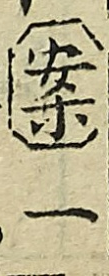（案）一
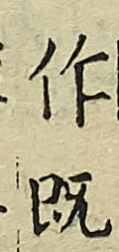作既
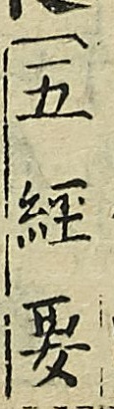（五經要
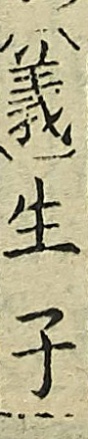（義）生子
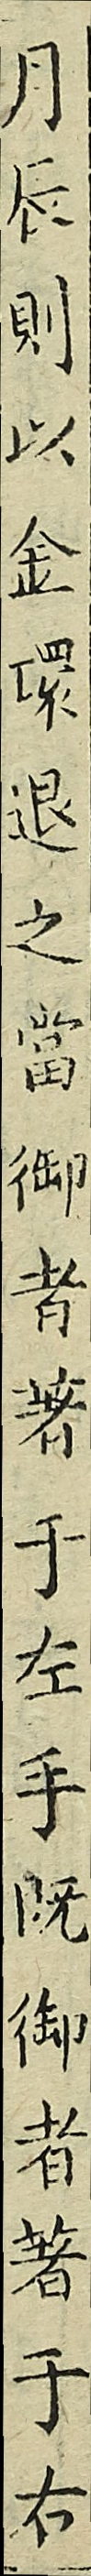月長則以金環退之當御者著于左手既御者著于右
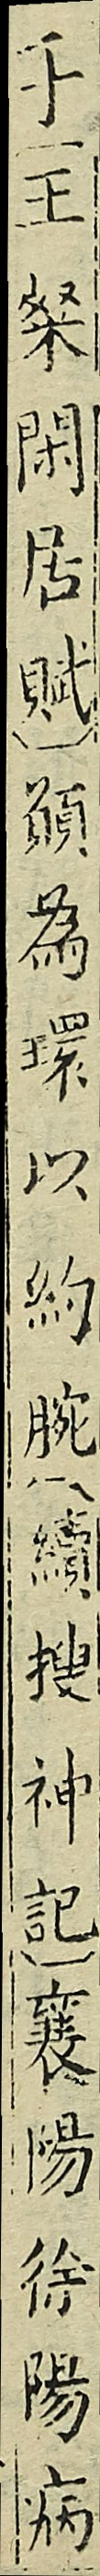于（王粲閑居賦）為環以約腕（續搜神記）襄陽徐陽病
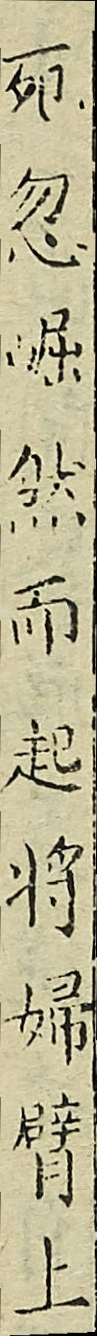死忽崛然而起將婦臂上
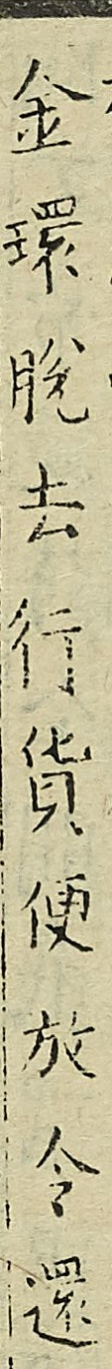金環脫去行貨便放令還
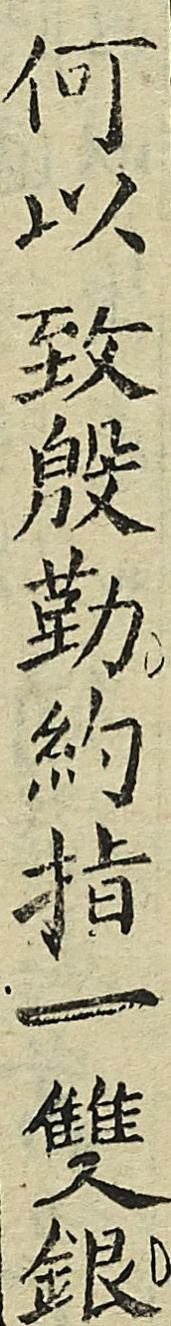何以致殷勤約指一雙銀
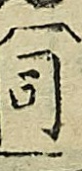（司
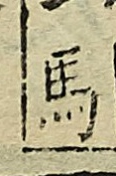馬
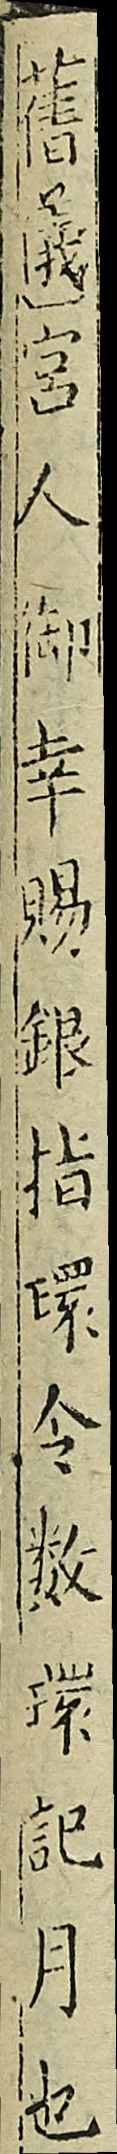舊義）宮人御倖賜銀指環令數環記月也
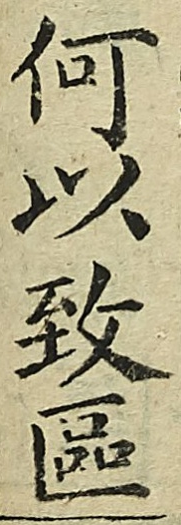何以致區
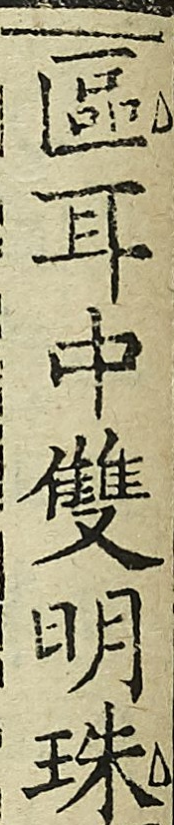區耳中雙明珠
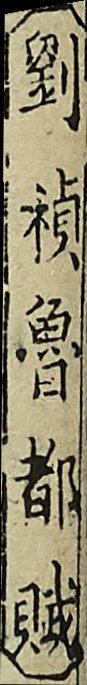（劉楨魯都賦）
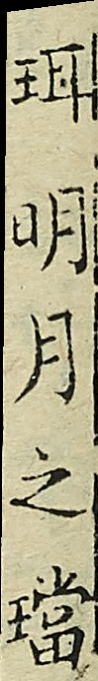珥明月之璫
